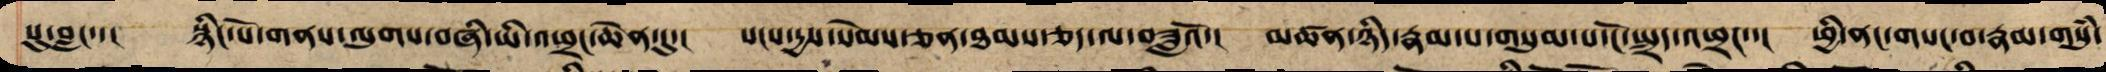སུ་བླང་་། སྙིང་པོ་གནས་ལུགས་གཞི་ཡི་འཕྲང་ཆེན་དུ་། སངས་དྱས་སེམས་ཅན་ཐམས་ཅད་ལ་བཟླའོ་། མཚན་ཉིད་རྣམ་པ་གསུམ་པོ་ངོ་སྤྲད་འཕྲང་་། ཕྱི་ནང་གསང་བ་རྣམ་གསུཾ་
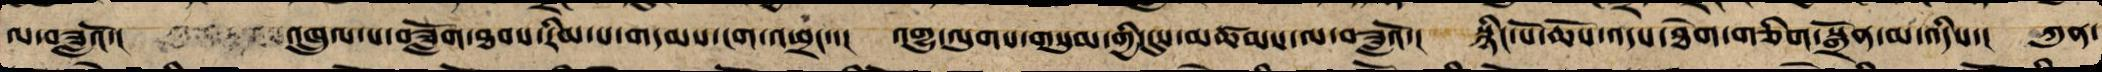ལ་བཟླའོ་། འཁྲུལ་པ་བཟློག་ཐབས་རིམ་པ་གདམས་ངག་འཕྲང་་། འགྱུ་ལུགས་གསུམ་གྱིས་དུས་མཚམས་ལ་བཟླའོ་། སྙིང་པོའི་ཆོས་འདས་ཐེག་གཅིག་སྒྲོན་མ་འདིས་། ཀུན་
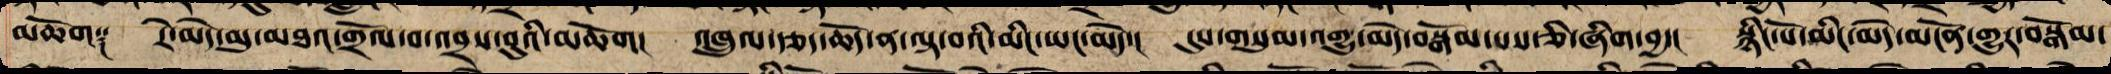མཆོག༑ རེ་མེད་མུ་མཐའ་གྲོལ་བ་འབྲས་བུའི་མཆོག། འཁྲུལ་རྩད་ཆོད་ན་ལྟ་བའི་མིང་ཡང་མེད་། དུས་གསུམ་འགྱུ་མེད་བསྒོམ་པས་ཅི་ཞིག་བྱ་། སྙིང་པོ་མིང་མེད་མངོན་གྱུར་བསྒོམ་
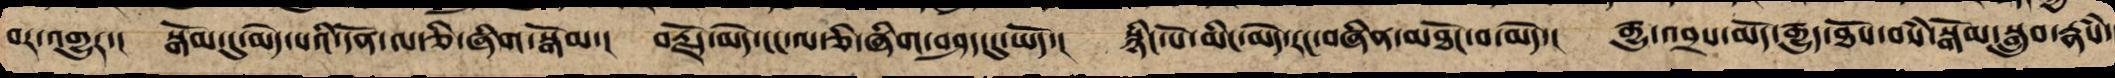བར་འགྱུར་། སྒོམ་དུ་མེད་པའི་དོན་ལ་ཅི་ཞིག་སྒོམ་། བརྗོད་མེད་ངང་ལ་ཅི་ཞིག་བཤད་དུ་ཡོད་། སྙིང་པོ་མིང་མེད་རང་བཞིན་མཐོང་བ་མེད་། རྒྱུ་འབྲས་མདོ་རྒྱུད་ཐོས་བསཾ་བསྒོམ་སྒྲུབ་རྣཾས་
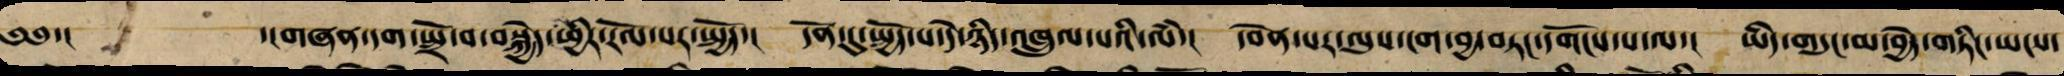༄༅་ ་།གཞན་དག་སྤྲོ་བ་བསྐྱེད་ཕྱིར་རོལ་པར་སྤྱོད་། དོན་དུ་སྤྱོད་པ་དེ་ཉིད་འཁྲུལ་པའི་ལཾ་། དབེན་པར་ལུས་ངག་བྱ་བཏང་དགོངས་པ་ལ་། ཡིད་གདུང་མ་བྱེད་གཏིང་ཡངས་
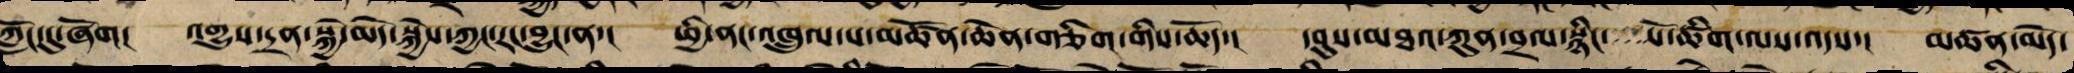ཀློང་དུ་ཞོག། འགྱུས་དྲན་སྐྱེ་མེད་སྐྱེས་ཀྱང་གང་བྱུང་ན་། ཕྱི་ནང་འཁྲུལ་པ་མཚོན་ཆེན་གཅིག་གིས་ཆོད་། དབུས་མཐའ་ཀུན་བྲལ་སྙིང་པོ་ཚིག་ལས་འདས་། མཚོན་མེད་
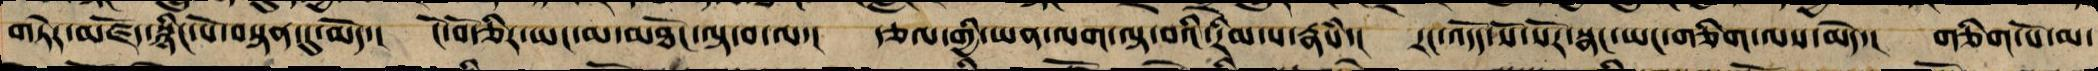གཏེར་མཛོད་སྙིང་པོ་བསྟན་དུ་མེད་། ངོ་བོ་ཅིར་ཡང་མ་མཐོང་ལྟ་བ་ལ་། རྩལ་གྱི་ཡན་ལག་ལྟ་བའི་རིམ་པ་རྣཾས། རང་འདོད་སོ་སོར་སྣང་ཡང་གཅིག་ལས་མེད་། གཅིག་པོ་མ་
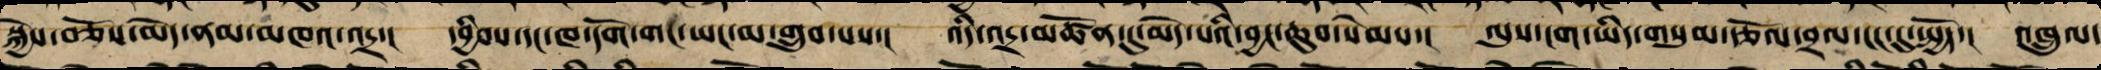སྐྱེས་བཅོས་མེད་ནམ་མཁའ་འདྲ་། དབྱིབས་དང་ཁ་དོག་གང་ཡང་མ་གྲུབ་པས་། འདི་འདྲ་མཚོན་དུ་མེད་པའི་བྱང་ཆུབ་སེམས་། ལུས་ངག་ཡིད་གསུམ་རྩོལ་བྲལ་ངང་དུ་སྤྱོད་། འཁྲུལ་
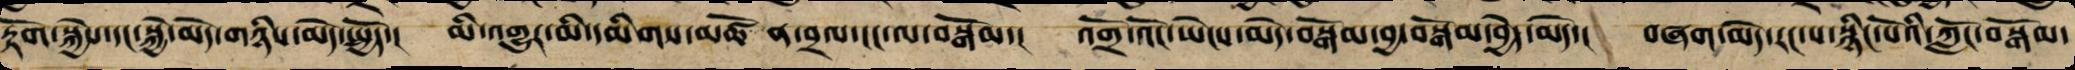རྟོགས་སྐྱེས་དང་སྐྱེ་མེད་གཉིས་མེད་སྤྱོད་། མི་འགྱུར་མི་དམིགས་མཚོན་བྲལ་ངང་ལ་བསྒོམ་། འགྲོ་འོང་ཡེངས་མེད་བསྒོམ་བྱ་སྒོམ་བྱེད་མེད་། གཞན་མེད་རང་ས་སྙིང་པོའི་ཀློང་བསྒོམ་
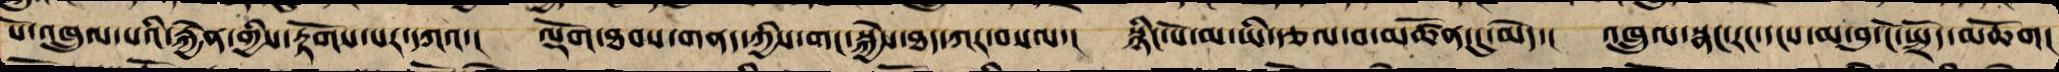པོ་འཁྲུལ་པའི་རྐྱེན་གྱིས་རྟོགས་པར་དཀའ་། ལྡོག་ཐབས་གནད་ཀྱིས་གང་སྐྱེས་ཐད་ཀར་གསལ་། སྙིང་པོ་མ་ཡི་རྩ་བ་མཚོན་དུ་མེད་། འཁྲུལ་སྣང་རང་དངས་མ་བུ་ངོ་སྤྲོད་མཆོག།
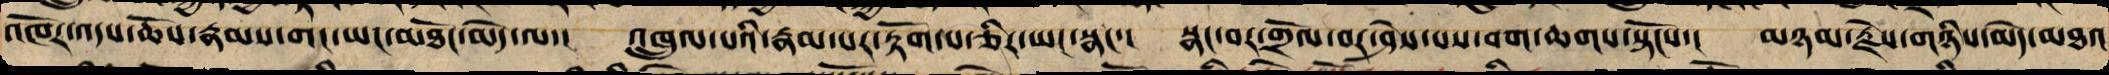འཁོར་འདས་ཆོས་རྣམས་གང་ཡང་མཐོང་མེད་ལ་། འཁྲུལ་པའི་རྣམ་པར་རྟོག་པ་ཅིར་ཡང་སྣང་་། སྣང་བ་གྲོལ་བར་ཤེས་པས་བག་ཆགས་སྟོངས་། མཉམ་རྗེས་གཉིས་མེད་མཐའ
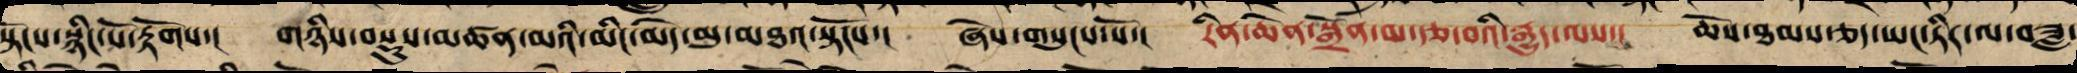སྟོངས་སྙིང་པོ་རྟོགས་། གཉིས་བསྡུས་མཚན་མའི་མིང་མེད་མུ་མཐའ་སྟོངས་། ཞེས་གསུངས་སོ་། རིན་ཆེན་སྒྲོན་མ་རྩ་བའི་རྒྱུད་ལས་། ཆོས་ཐམས་ཅད་ཡང་ཏིར་ལ་བཟླ་
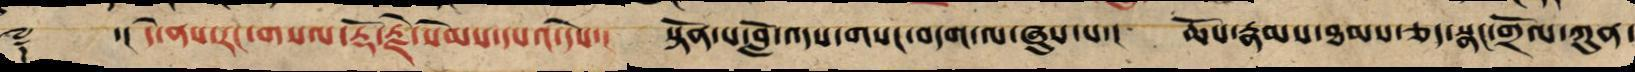༈ ་།། དེ་ནས་རང་གསལ་རྡོ་རྗེ་སེམས་དཔའ་དེས་། སྟོན་པ་བློ་འདས་གསང་བདག་ལ་ཞུས་པ་། ཆོས་རྣམས་ཐམས་ཅད་སྣང་གྲོལ་ཀུན་
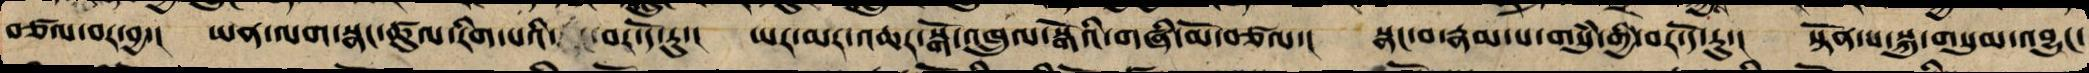བཙལ་བར་བྱ་། ཡན་ལག་སྣང་ཚུལ་རིག་པའི་བར་དོ་རུ་། ཡར་མར་འཆར་སྒོ་འཁྲུལ་སྒོའི་གཞི་མོ་བཙལ་། སྣང་བ་རྣམ་པ་གསུཾ་གྱི་བར་དོ་རུ་། སྟོན་པ་སྐུ་གསུམ་འབྱུང་
